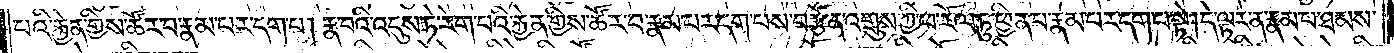པའི་རྐྱེན་གྱིས་ཚོར་བ་རྣམ་པར་དག་པ། རྣ་བའི་འདུས་ཏེ་རེག་པའི་རྐྱེན་གྱིས་ཚོར་བ་རྣམ་པར་དག་པས་བརྩོན་འགྲུས་ཀྱི་ཕ་རོལ་ཏུ་ཕྱིན་པ་རྣམ་པར་དག་པ་སྟེ། དེ་ལྟར་ན་རྣམ་པ་ཐམས་
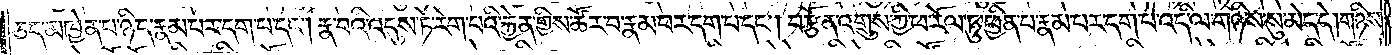ཅད་མཁྱེན་པ་ཉིད་རྣམ་པར་དག་པ་དང༌། རྣ་བའི་འདུས་ཏེ་རེག་པའི་རྐྱེན་གྱིས་ཚོར་བ་རྣམ་པར་དག་པ་དང༌། བརྩོན་འགྲུས་ཀྱི་ཕ་རོལ་ཏུ་ཕྱིན་པ་རྣམ་པར་དག་པ་འདི་ལ་གཉིས་སུ་མེད་དེ། གཉིས་
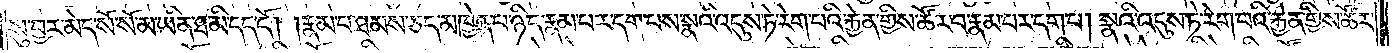སུ་བྱར་མེད་སོ་སོ་མ་ཡིན་ཐ་མི་དད་དོ། །རྣམ་པ་ཐམས་ཅད་མཁྱེན་པ་ཉིད་རྣམ་པར་དག་པས་སྣའི་འདུས་ཏེ་རེག་པའི་རྐྱེན་གྱིས་ཚོར་བ་རྣམ་པར་དག་པ། སྣའི་འདུས་ཏེ་རེག་པའི་རྐྱེན་གྱིས་ཚོར་
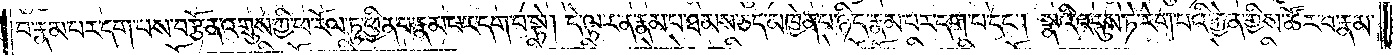བ་རྣམ་པར་དག་པས་བརྩོན་འགྲུས་ཀྱི་ཕ་རོལ་ཏུ་ཕྱིན་པ་རྣམ་པར་དག་པ་སྟེ། དེ་ལྟར་ན་རྣམ་པ་ཐམས་ཅད་མཁྱེན་པ་ཉིད་རྣམ་པར་དག་པ་དང༌། སྣའི་འདུས་ཏེ་རེག་པའི་རྐྱེན་གྱིས་ཚོར་བ་རྣམ་
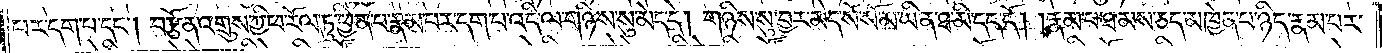པར་དག་པ་དང༌། བརྩོན་འགྲུས་ཀྱི་ཕ་རོལ་ཏུ་ཕྱིན་པ་རྣམ་པར་དག་པ་འདི་ལ་གཉིས་སུ་མེད་དེ། གཉིས་སུ་བྱར་མེད་སོ་སོ་མ་ཡིན་ཐ་མི་དད་དོ། །རྣམ་པ་ཐམས་ཅད་མཁྱེན་པ་ཉིད་རྣམ་པར་
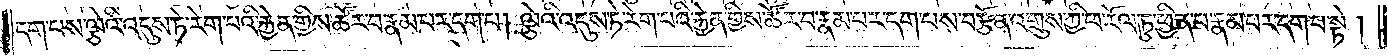དག་པས་ལྕེའི་འདུས་ཏེ་རེག་པའི་རྐྱེན་གྱིས་ཚོར་བ་རྣམ་པར་དག་པ། ལྕེའི་འདུས་ཏེ་རེག་པའི་རྐྱེན་གྱིས་ཚོར་བ་རྣམ་པར་དག་པས་བརྩོན་འགྲུས་ཀྱི་ཕ་རོལ་ཏུ་ཕྱིན་པ་རྣམ་པར་དག་པ་སྟེ།
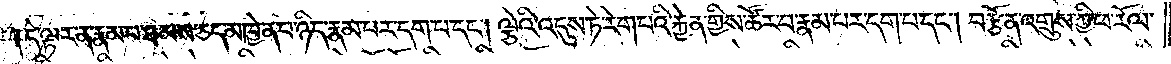དེ་ལྟར་ན་རྣམ་པ་ཐམས་ཅད་མཁྱེན་པ་ཉིད་རྣམ་པར་དག་པ་དང༌། ལྕེའི་འདུས་ཏེ་རེག་པའི་རྐྱེན་གྱིས་ཚོར་བ་རྣམ་པར་དག་པ་དང༌། བརྩོན་འགྲུས་ཀྱི་ཕ་རོལ་
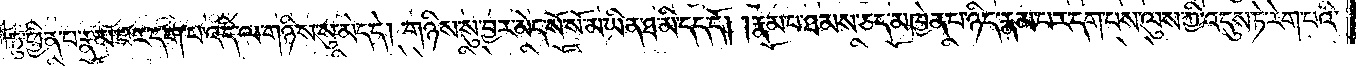ཏུ་ཕྱིན་པ་རྣམ་པར་དག་པ་འདི་ལ་གཉིས་སུ་མེད་དེ། གཉིས་སུ་བྱར་མེད་སོ་སོ་མ་ཡིན་ཐ་མི་དད་དོ། །རྣམ་པ་ཐམས་ཅད་མཁྱེན་པ་ཉིད་རྣམ་པར་དག་པས་ལུས་ཀྱི་འདུས་ཏེ་རེག་པའི་
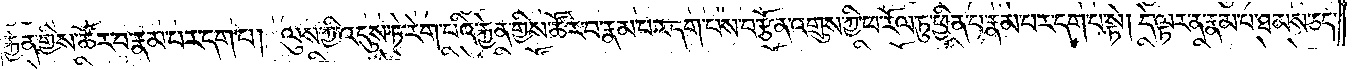རྐྱེན་གྱིས་ཚོར་བ་རྣམ་པར་དག་པ། ལུས་ཀྱི་འདུས་ཏེ་རེག་པའི་རྐྱེན་གྱིས་ཚོར་བ་རྣམ་པར་དག་པས་བརྩོན་འགྲུས་ཀྱི་ཕ་རོལ་ཏུ་ཕྱིན་པ་རྣམ་པར་དག་པ་སྟེ། དེ་ལྟར་ན་རྣམ་པ་ཐམས་ཅད་
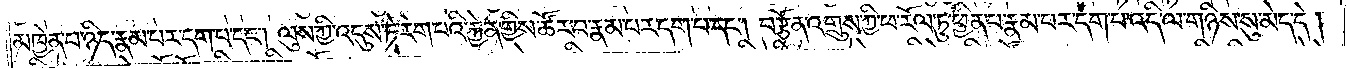མཁྱེན་པ་ཉིད་རྣམ་པར་དག་པ་དང༌། ལུས་ཀྱི་འདུས་ཏེ་རེག་པའི་རྐྱེན་གྱིས་ཚོར་བ་རྣམ་པར་དག་པ་དང༌། བརྩོན་འགྲུས་ཀྱི་ཕ་རོལ་ཏུ་ཕྱིན་པ་རྣམ་པར་དག་པ་འདི་ལ་གཉིས་སུ་མེད་དེ།
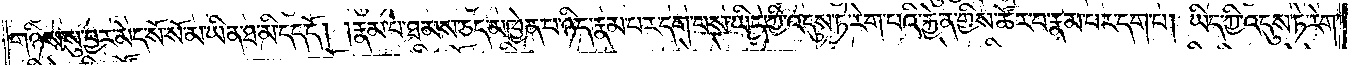གཉིས་སུ་བྱར་མེད་སོ་སོ་མ་ཡིན་ཐ་མི་དད་དོ། །རྣམ་པ་ཐམས་ཅད་མཁྱེན་པ་ཉིད་རྣམ་པར་དག་པས་ཡིད་ཀྱི་འདུས་ཏེ་རེག་པའི་རྐྱེན་གྱིས་ཚོར་བ་རྣམ་པར་དག་པ། ཡིད་ཀྱི་འདུས་ཏེ་རེག་
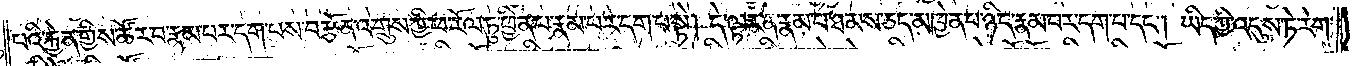པའི་རྐྱེན་གྱིས་ཚོར་བ་རྣམ་པར་དག་པས་བརྩོན་འགྲུས་ཀྱི་ཕ་རོལ་ཏུ་ཕྱིན་པ་རྣམ་པར་དག་པ་སྟེ། དེ་ལྟར་ན་རྣམ་པ་ཐམས་ཅད་མཁྱེན་པ་ཉིད་རྣམ་པར་དག་པ་དང༌། ཡིད་ཀྱི་འདུས་ཏེ་རེག་
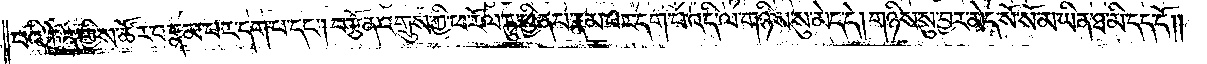པའི་རྐྱེན་གྱིས་ཚོར་བ་རྣམ་པར་དག་པ་དང༌། བརྩོན་འགྲུས་ཀྱི་ཕ་རོལ་ཏུ་ཕྱིན་པ་རྣམ་པར་དག་པ་འདི་ལ་གཉིས་སུ་མེད་དེ། གཉིས་སུ་བྱར་མེད་སོ་སོ་མ་ཡིན་ཐ་མི་དད་དོ༎
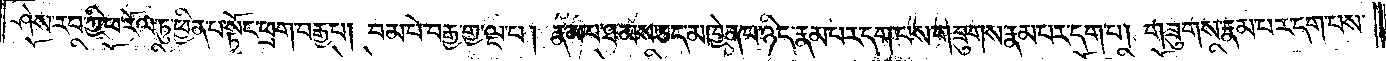ཤེས་རབ་ཀྱི་ཕ་རོལ་ཏུ་ཕྱིན་པ་སྟོང་ཕྲག་བརྒྱ་པ། བམ་པོ་བརྒྱ་གྱ་ལྔ་པ། རྣམ་པ་ཐམས་ཅད་མཁྱེན་པ་ཉིད་རྣམ་པར་དག་པས་གཟུགས་རྣམ་པར་དག་པ། གཟུགས་རྣམ་པར་དག་པས་
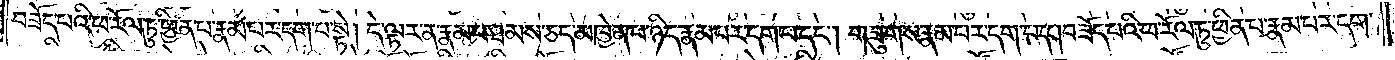བཟོད་པའི་ཕ་རོལ་ཏུ་ཕྱིན་པ་རྣམ་པར་དག་པ་སྟེ། དེ་ལྟར་ན་རྣམ་པ་ཐམས་ཅད་མཁྱེན་པ་ཉིད་རྣམ་པར་དག་པ་དང༌། གཟུགས་རྣམ་པར་དག་པ་དང༌། བཟོད་པའི་ཕ་རོལ་ཏུ་ཕྱིན་པ་རྣམ་པར་དག་
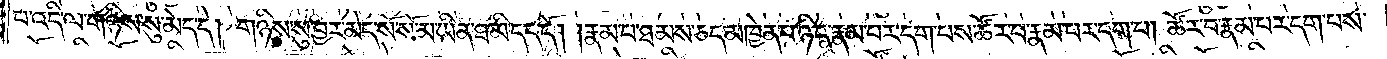པ་འདི་ལ་གཉིས་སུ་མེད་དེ། གཉིས་སུ་བྱར་མེད་སོ་སོ་མ་ཡིན་ཐ་མི་དད་དོ། །རྣམ་པ་ཐམས་ཅད་མཁྱེན་པ་ཉིད་རྣམ་པར་དག་པས་ཚོར་བ་རྣམ་པར་དག་པ། ཚོར་བ་རྣམ་པར་དག་པས་
